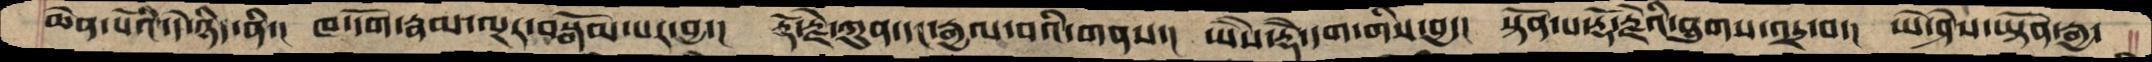ཆེན་པོའི་དེ་ཉིད་ནི་།  ཁ་དོག་རྣམ་ལྔར་བསྒོམ་པར་བྱ་།  རྡོ་རྗེ་ཀུན་དང་རྒྱལ་བའི་གནས་།  ཡཻས་རྡོེ་དག་གིས་བྱ་།  སྟོན་པ་རྡོ་རྗེའི་ཐུགས་འདྲ་བ་།  ཡེ་ཤེས་ཡྟོན་རྒྱ་
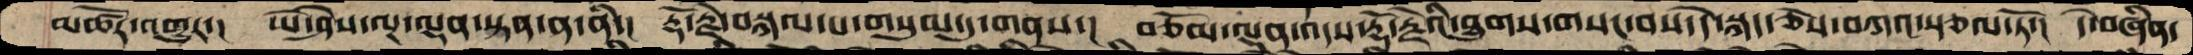མཚོར་འགྱུར་།  ཡེ་ཤེས་ལྔ་ལྡན་སྟན་ན་ནི་།  རྡོ་རྗེ་བསྐལ་པ་གསུམ་དུ་གནས་།  བཅོམ་ལྡན་འདས་རྡོ་རྗེའི་ཐུགས་གསང་བས་དེ་སྐད་ཅེས་བཀའ་སྩལ་ཏོ་།  དེ་བཞིན་
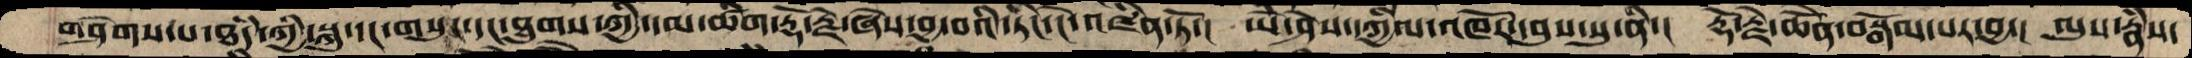གཤེགས་པ་ཐཾད་ཀྱི་སྐུ་དང་གསུང་དང་ཐུགས་ཀྱི་དམ་ཚིག་རྡོ་རྗེ་ཞེས་བྱ་བའི་ཏིང་ངེ་འཛིན་ཏོ་།  ཡེ་ཤེས་དཀྱིལ་འཁོར་དབུས་སུ་ནི་།  རྡོ་རྗེ་ཆེནོ་བསྒོམ་པར་བྱ་།  ལུས་རྣཾས་
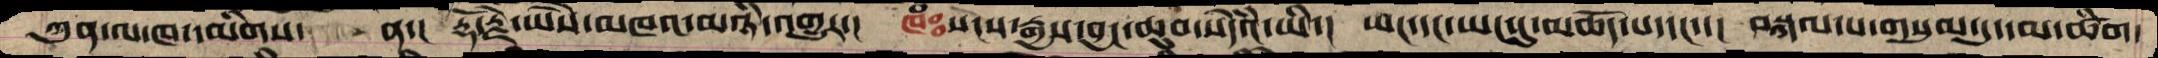ཀུན་ལ་ཁ་དམིགས་  ན་།   རྡོ་རྗེ་ཡཻས་མཁའ་མཉཾ་འགྱུར་།  ཁཾཿསངས་རྒྱས་བྱང་ཆུབ་སེདཾའ་ཡི་།  ཡང་དང་ཡང་དུ་མཆོད་པ་དང་་།   བསྐལ་པ་གསུམ་དུ་དམ་ཚིག་
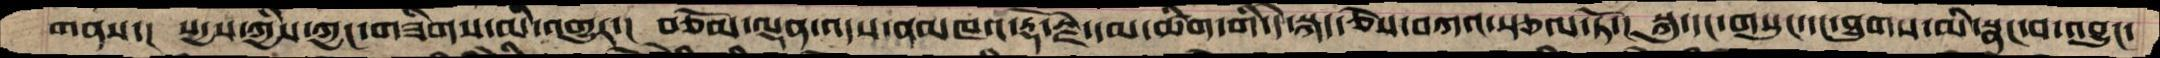གནས་།  སདྱས་ཀྱིས་ཀྱང་གཟིགས་མི་འགྱུར་།  བཅོམ་ལྡན་འདས་ནམཁའ་རྡོ་རྗེ་དམ་ཚིག་གི་དེ་སྐད་ཅེས་བཀའ་སྩལ་ཏོ་།  སྐུ་དང་གསུང་དང་ཐུགས་མི་སྣང་བ་འབྱུང་
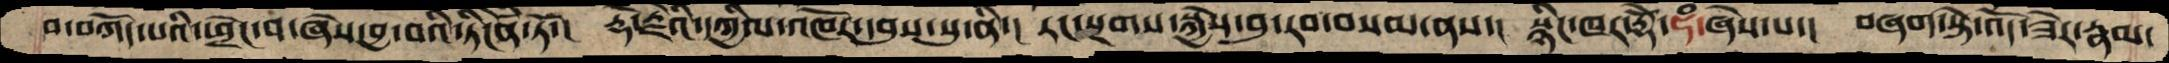བ་བཀོད་པའི་ཕྲེང་བ་ཞེས་བྱ་བའི་ཏིངེཛིན་ཏོ་།  རྡོ་རྗེའི་དཀྱིལ་འཁོར་དབུས་སུ་ནི་།  རང་སྔགས་སྐྱེས་བུ་རབ་བསམ་ནས་།  སྙིང་ཁར་རྡོེ་ཧཾ་ཞེས་པ་།  བཞག་སྟེ་འདོ་ཟེར་རྣམ་
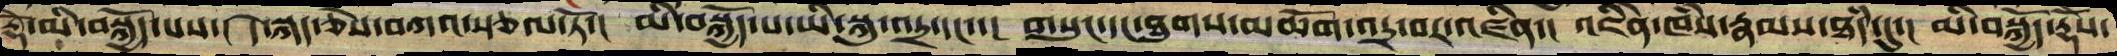རྡོེ་མི་བསྐྱོད་པས་།  དེ་སྐད་ཅེས་བཀའ་སྩལ་ཏོ་།   མི་བསྐྱོད་པ་ཡི་སྐུ་འདྲ་དང་་།  གསུང་དང་ཐུགས་མཆོག་འདྲ་བར་འཛིན་།  འཇིེན་ཁཾས་རྣམས་ཐཾད་དུ་།  མི་བསྐྱོད་རྡོེས་
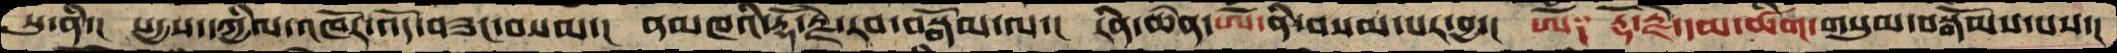སུ་ནི་།  སདྱས་དཀྱིལ་འཁོར་འདོ་བཟང་བསམ་།  ནམཁའི་རྡོ་རྗེ་རབ་བསྒོམ་ལ་།  རིན་ཆེན་ཨོཾ་ནི་བསམ་པར་བྱ་།  ཨོཾ༑ རྡོ་རྗེ་དམ་ཚིག་གསུམ་བསྒོམས་པས་
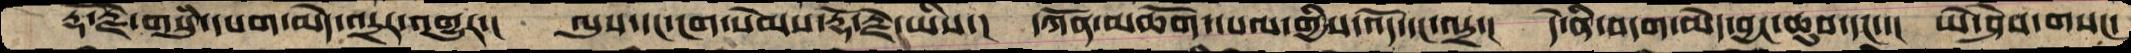རྡོ་རྗེ་གསུཾ་དཔག་མེད་འདྲར་འགྱུར་།  ལུས་དང་ངག་སེམས་རྡོ་རྗེ་ཡིས་།  དཀོན་མཆོག་དཔལ་གྱིས་འོད་དང་འདྲ་།   དེ་ནི་བདག་མེད་བྱང་ཆུབ་དང་་།  ཡེ་ཤེས་གསང་
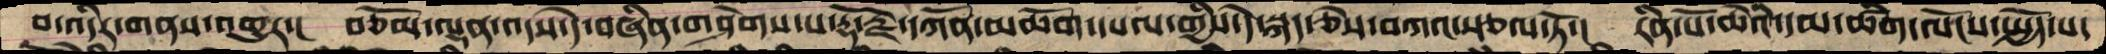བ་འདིར་གནས་འགྱུར་།  བཅོམ་ལྡན་འདས་དེ་བཞིན་གཤེགས་པ་རྡོ་རྗེ་དཀོན་མཆོག་དཔལ་གྱིས་དེ་སྐད་ཅེས་བཀའ་སྩལ་ཏོ་།  རིན་པོ་ཆེའི་དམ་ཚིག་ལོངས་སྤྱོད་པ་
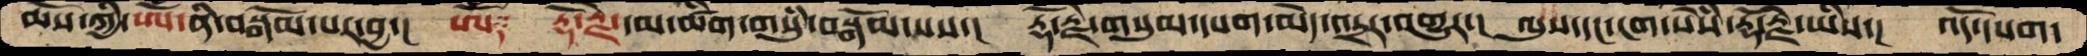ཆོས་ཀྱི་ཨོཾ་ནི་བསྒོམ་པར་བྱ་།  ཨོཾ༑  རྡོ་རྗེ་དམ་ཚིག་གསུཾ་བསྒོམ་པས་།  རྡོ་རྗེ་གསུམ་དཔག་མེད་འདྲར་འགྱུར་།   ལུས་དང་ངག་སེཾས་རྡོ་རྗེ་ཡིས་།  འོད་དཔག་
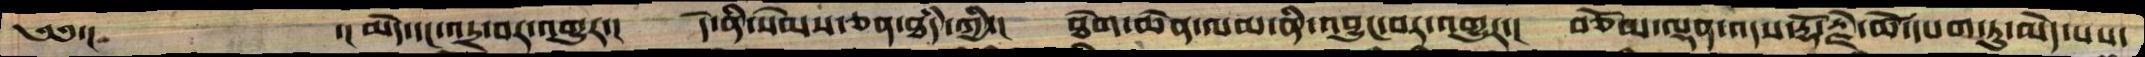༄༅་།   ་།མེད་དང་འདྲ་བར་འགྱུར་།  དེ་ནི་སེམས་ཅན་ཐཾད་ཀྱི་།  ཐེག་ཆེན་ལམ་ནི་འབྱུང་བར་འགྱུར་།  བཅོམ་ལྡན་འདས་རྡོ་རྗེ་ཚེ་དཔག་ཏུ་མེད་པས་
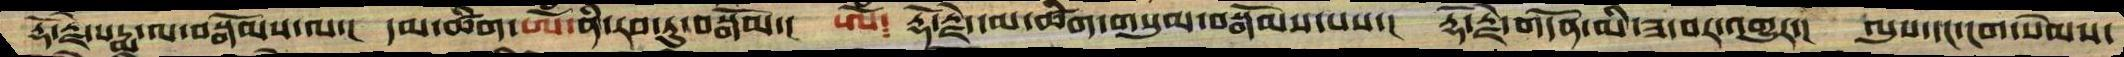རྡོ་རྗེ་པདྨ་ལ་བསྒོམས་ལ་།  དམ་ཚིག་ཨོཾ་ནི་རབ་ཏུ་བསྒོམ་།  ཨོཾ༴  རྡོ་རྗེ་དམ་ཚིག་གསུམ་བསྒོམས་པས་།  རྡོ་རྗེ་གདོན་མི་ཟ་བར་འགྱུར་།  ལུས་དང་ངག་སེམས་
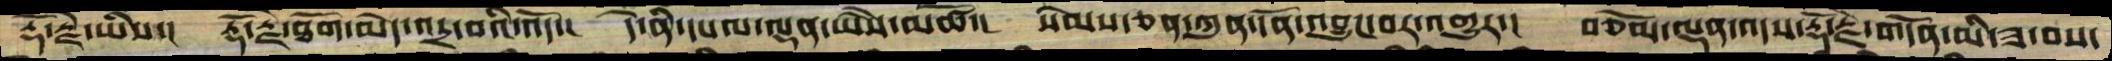རྡོ་རྗེ་ཡིས་།  རྡོ་རྗེ་ཐོག་མེད་འདྲ་བའི་འོད་།  དེ་ནི་དཔལ་ལྡན་ཡཻས་མཚོ་།  སེམས་ཅན་ཀུན་དོན་འབྱུང་བར་འགྱུར་།  བཅོམ་ལྡན་འདས་རྡོ་རྗེ་གདོན་མི་ཟ་བས་
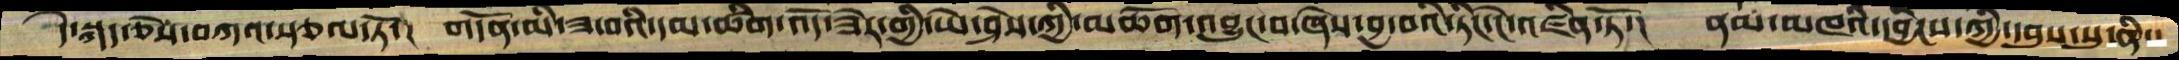དེ་སྐད་ཅེས་བཀའ་སྩལ་ཏོ་།  གདོན་མི་ཟ་བའི་དམ་ཚིག་འོད་ཟེར་གྱི་ཡེ་ཤེས་ཀྱི་མཆོག་འབྱུང་བ་ཞེས་བྱ་བའི་ཏིང་ངེ་འཛིན་ཏོ་།  ནམ་མཁའི་དབྱིངས་ཀྱི་དབུས་སུ་ནི་།
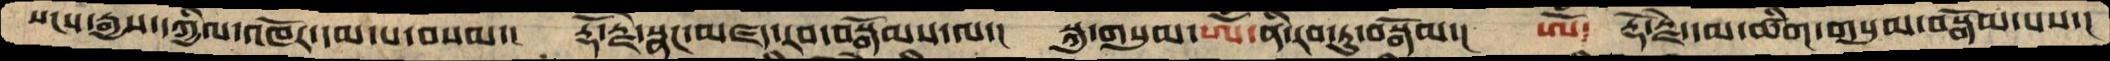སངས་རྒྱས་དཀྱིལ་འཁོར་དམ་པ་བསམ་།  རྡོ་རྗེ་སྣང་མཛད་རབ་བསྒོམས་ལ་།  སྐུ་གསུམ་ཨོཾ་ནི་རབ་ཏུ་བསྒོམ་།  ཨོཾ༑  རྡོ་རྗེ་དམ་ཚིག་གསུམ་བསྒོམ་པས་།
